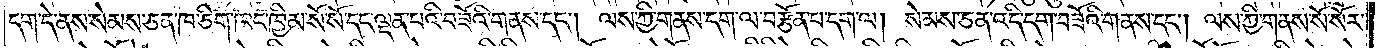དག་དེ་ནས་སེམས་ཅན་ཁ་ཅིག་ཁང་ཁྱིམ་སོ་སོ་དང་ལྡན་པའི་བཟོའི་གནས་དང༌། ལས་ཀྱི་གནས་དག་ལ་བརྩོན་པ་དག་ལ། སེམས་ཅན་འདི་དག་བཟོའི་གནས་དང༌། ལས་ཀྱི་གནས་སོ་སོར་
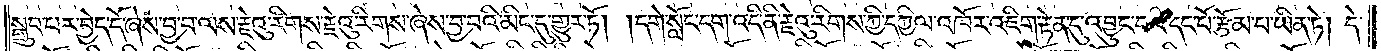སྒྲུབ་པར་བྱེད་དོ་ཞེས་བྱ་བ་ལས་རྗེའུ་རིགས་རྗེའུ་རིགས་ཞེས་བྱ་བའི་མིང་དུ་གྱུར་ཏོ། །དགེ་སློང་དག་འདི་ནི་རྗེའུ་རིགས་ཀྱི་དཀྱིལ་འཁོར་འཇིག་རྟེན་དུ་འབྱུང་བའི་དང་པོ་རྩོམ་པ་ཡིན་ཏེ། དེ་
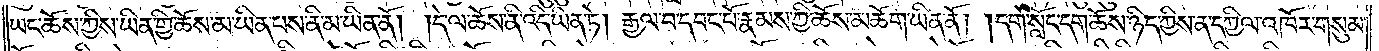ཡང་ཆོས་ཀྱིས་ཡིན་གྱི་ཆོས་མ་ཡིན་པས་ནི་མ་ཡིན་ནོ། །དེ་ལ་ཆོས་ནི་འདི་ཡིན་ཏེ། རྒྱལ་བ་དབང་པོ་རྣམས་ཀྱི་ཆོས་མཆོག་ཡིན་ནོ། །དགེ་སློང་དག་ཆོས་ཉིད་ཀྱིས་ན་དཀྱིལ་འཁོར་གསུམ་
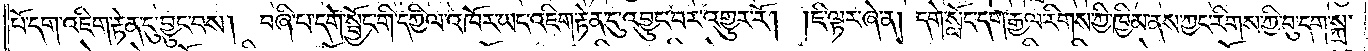པོ་དག་འཇིག་རྟེན་དུ་བྱུང་བས། བཞི་པ་དགེ་སྦྱོང་གི་དཀྱིལ་འཁོར་ཡང་འཇིག་རྟེན་དུ་འབྱུང་བར་འགྱུར་རོ། །ཇི་ལྟར་ཞེ་ན། དགེ་སློང་དག་རྒྱལ་རིགས་ཀྱི་ཁྱིམ་ནས་ཀྱང་རིགས་ཀྱི་བུ་དག་སྐྲ་
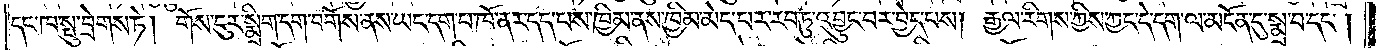དང་ཁ་སྤུ་བྲེགས་ཏེ། གོས་ངུར་སྨྲིག་དག་བགོས་ནས་ཡང་དག་པ་ཁོ་ནར་དད་པས་ཁྱིམ་ནས་ཁྱིམ་མེད་པར་རབ་ཏུ་འབྱུང་བར་བྱེད་པས། རྒྱལ་རིགས་ཀྱིས་ཀྱང་དེ་དག་ལ་མངོན་དུ་སྨྲ་བ་དང༌།
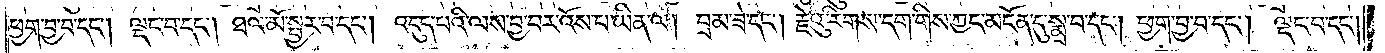ཕྱག་བྱ་བ་དང༌། ལྡང་བ་དང༌། ཐལ་མོ་སྦྱར་བ་དང༌། འདུད་པའི་ལས་བྱ་བར་འོས་པ་ཡིན་ལ། བྲམ་ཟེ་དང༌། རྗེའུ་རིགས་དག་གིས་ཀྱང་མངོན་དུ་སྨྲ་བ་དང༌། ཕྱག་བྱ་བ་དང༌།  ལྡང་བ་དང༌།
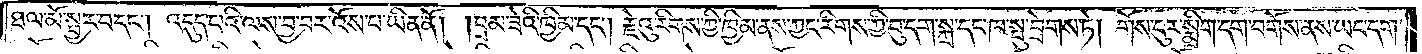ཐལ་མོ་སྦྱར་བ་དང༌། འདུད་པའི་ལས་བྱ་བར་འོས་པ་ཡིན་ནོ། །བྲམ་ཟེའི་ཁྱིམ་དང༌། རྗེའུ་རིགས་ཀྱི་ཁྱིམ་ནས་ཀྱང་རིགས་ཀྱི་བུ་དག་སྐྲ་དང་ཁ་སྤུ་བྲེགས་ཏེ། གོས་ངུར་སྨྲིག་དག་བགོས་ནས་ཡང་དག་
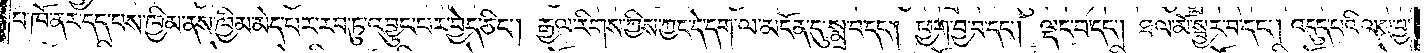པ་ཁོ་ནར་དད་པས་ཁྱིམ་ནས་ཁྱིམ་མེད་པར་རབ་ཏུ་འབྱུང་པར་བྱེད་ཅིང༌། རྒྱལ་རིགས་ཀྱིས་ཀྱང་དེ་དག་ལ་མངོན་དུ་སྨྲ་བ་དང༌། ཕྱག་བྱ་བ་དང༌། ལྡང་བ་དང༌། ཐལ་མོ་སྦྱར་བ་དང༌། འདུད་པའི་ལས་བྱ་
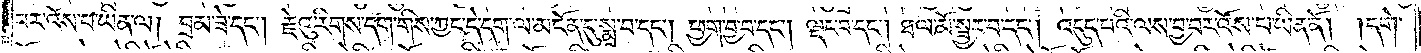པར་འོས་པ་ཡིན་ལ། བྲམ་ཟེ་དང༌། རྗེའུ་རིགས་དག་གིས་ཀྱང་དེ་དག་ལ་མངོན་དུ་སྨྲ་བ་དང༌། ཕྱག་བྱ་བ་དང༌། ལྡང་བ་དང༌། ཐལ་མོ་སྦྱར་བ་དང༌། འདུད་པའི་ལས་བྱ་བར་འོས་པ་ཡིན་ནོ། །དགེ་
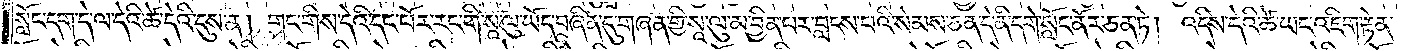སློང་དག་དེ་ལ་དེའི་ཚེ་དེའི་དུས་ན། གང་གིས་དེའི་དང་པོར་རང་གི་སཱ་ལུ་ཡོད་བཞིན་དུ་གཞན་གྱི་སཱ་ལུ་མ་བྱིན་པར་བླངས་པའི་སེམས་ཅན་དེ་ནི་དགེ་སློང་ནོར་ཅན་ཏེ། འདིས་དེའི་ཚེ་ཡང་འཇིག་རྟེན་
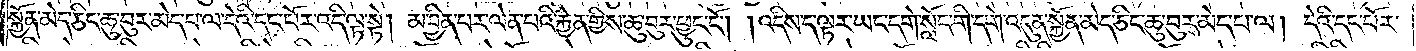སྐྱོན་མེད་ཅིང་ཆུ་བུར་མེད་པ་ལ་དེའི་དང་པོར་འདི་ལྟ་སྟེ། མ་བྱིན་པར་ལེན་པའི་རྐྱེན་གྱིས་ཆུ་བུར་ཕྱུང་ངོ༌། །འདིས་ད་ལྟར་ཡང་དགེ་སློང་གི་དགེ་འདུན་སྐྱོན་མེད་ཅིང་ཆུ་བུར་མེད་པ་ལ། དེའི་དང་པོར་
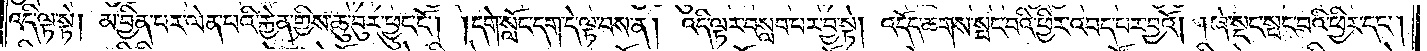འདི་ལྟ་སྟེ། མ་བྱིན་པར་ལེན་པའི་རྐྱེན་གྱིས་ཆུ་བུར་ཕྱུང་ངོ༌། །དགེ་སློང་དག་དེ་ལྟ་བས་ན། འདི་ལྟར་བསླབ་པར་བྱ་སྟེ། འདོད་ཆགས་སྤང་བའི་ཕྱིར་འབད་པར་བྱའོ། །ཞེ་སྡང་སྤང་བའི་ཕྱིར་དང༌།
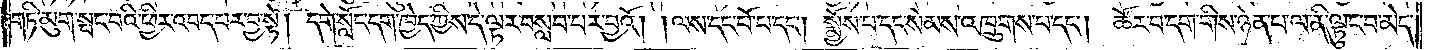གཏི་མུག་སྤང་བའི་ཕྱིར་འབད་པར་བྱ་སྟེ། དགེ་སློང་དག་ཁྱེད་ཀྱིས་དེ་ལྟར་བསླབ་པར་བྱའོ། །ལས་དང་པོ་པ་དང༌། སྨྱོས་པ་དང་སེམས་འཁྲུགས་པ་དང༌།  ཚོར་བ་དག་གིས་ཉེན་པ་ལ་ནི་ལྟུང་བ་མེད་
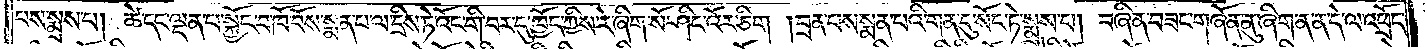པས་སྨྲས་པ། ཚེ་དང་ལྡན་པ་སྐྱོང་བ་ཁོ་བོས་སྨན་པ་ལ་དྲིས་ཏེ་འོང་གི་བར་དུ་ཁྱོད་ཀྱིས་རེ་ཞིག་སོ་ཤིང་འོར་ཅིག །བྲན་པས་སྨན་པའི་གན་དུ་སོང་ཏེ་སྨྲས་པ། བཞིན་བཟང་གཞོན་ནུ་ཞིག་ན་ན་དེ་ལ་འཕྲོད་
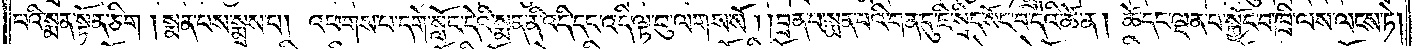པའི་སྨན་སྟོན་ཅིག །སྨན་པས་སྨྲས་པ། འཕགས་པ་དགེ་སློང་དེའི་སྨན་ནི་འདི་དང་འདི་ལྟ་བུ་ལགས་སོ། །བྲན་པ་སྨན་པའི་གན་དུ་ཇི་སྲིད་སོང་བ་དེའི་ཚེ་ན། ཚེ་དང་ལྡན་པ་སྐྱོང་བ་ཁྲི་ལས་ལངས་ཏེ།
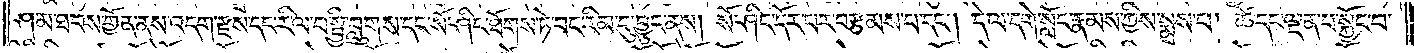ཤམ་ཐབས་གྱོན་ནས་འདག་རྫས་དང་རི་ལ་བ་སྤྱི་བླུགས་དང་སོ་ཤིང་ཐོགས་ཏེ་བང་རིམ་དུ་བྱུང་ནས། སོ་ཤིང་དོར་པར་བརྩམས་པ་དང༌། དེ་ལ་དགེ་སློང་རྣམས་ཀྱིས་སྨྲས་པ། ཚེ་དང་ལྡན་པ་སྐྱོང་བ་
